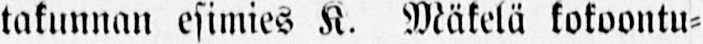takunnan esimies K. Mäkelä kokoontu-
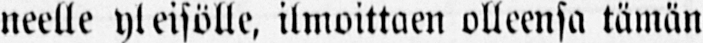neelle yleisölle, ilmoittaen olleensa tämän
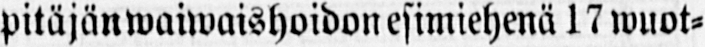pitäjänwaiwaishoidon esimiehenä 17 wuot-
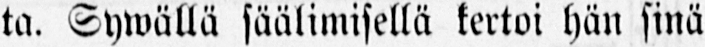ta. Sywällä säälimisellä kertoi hän sinä
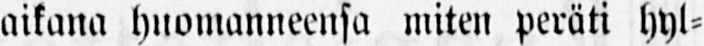aikana huomanneensa miten peräti hyl-
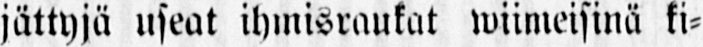jättyjä useat ihmisraukat wiimeisinä ki-
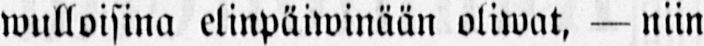wulloisina elinpäiwinään oliwat, — niin
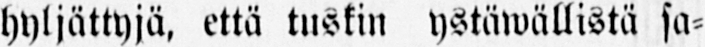hyljättyjä, että tuskin ystäwällistä sa-
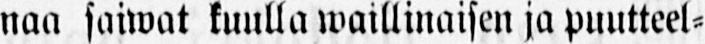naa saiwat kuulla waillinaisen ja puutteel-
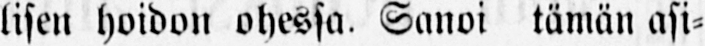lisen hoidon ohessa. Sanoi tämän asi-
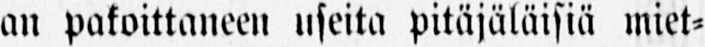an pakoittaneen useita pitäjäläisiä miet-
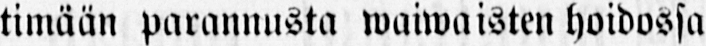timään parannusta waiwaisten hoidossa
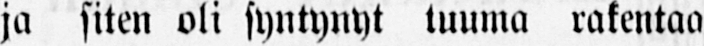ja siten oli syntynyt tuuma rakentaa
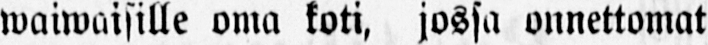waiwaisille oma koti, jossa onnettomat
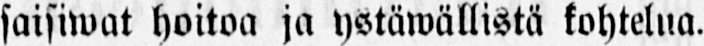saisiwat hoitoa ja ystäwällistä kohtelua.
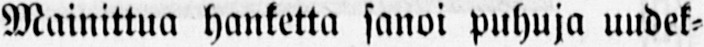Mainittua hanketta sanoi puhuja uudek-
